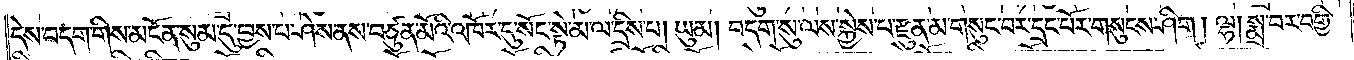དེས་བདག་གིས་མངོན་སུམ་དུ་བྱས་པ་ཤེས་ནས་བཙུན་མོའི་འཁོར་དུ་སོང་སྟེ་མ་ལ་དྲིས་པ། ཡུམ། བདག་སུ་ལས་སྐྱེས་པ་རྫུན་མ་གསུང་བར་དྲང་པོར་གསུངས་ཤིག །ལྷ། སྨྲ་བར་བགྱི་
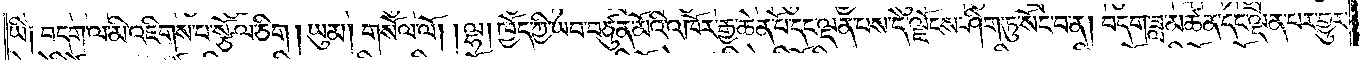ཡི༑ བདག་ལ་མི་འཇིགས་པ་སྩོལ་ཅིག །ཡུམ། གསོལ་ལོ། །ལྷ། ཁྱོད་ཀྱི་ཡབ་བཙུན་མོའི་འཁོར་རྒྱ་ཆེན་པོ་དང་ལྡན་པས་དེ་ལྗོངས་ཤིག་ཏུ་སོང་བ་ན། བདག་ཟླ་མཚན་དང་ལྡན་པར་གྱུར་
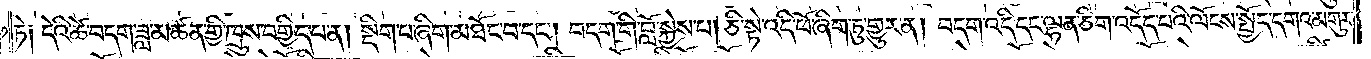ཏེ༑ དེའི་ཚེ་བདག་ཟླ་མཚན་གྱི་ཁྲུས་བགྱིད་པ་ན། སྡིག་པ་ཞིག་མཐོང་བ་དང༌། བདག་གི་བློ་སྐྱེས་པ། ཅི་སྟེ་འདི་ཕོ་ཞིག་ཏུ་གྱུར་ན། བདག་འདི་དང་ལྷན་ཅིག་འདོད་པའི་ལོངས་སྤྱོད་དགའ་མགུར་
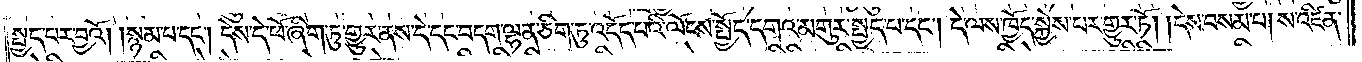སྤྱད་པར་བྱའོ། །སྙམ་པ་དང༌། དེས་དེ་ཕོ་ཞིག་ཏུ་གྱུར་ནས་དེ་དང་བདག་ལྷན་ཅིག་ཏུ་འདོད་པའི་ལོངས་སྤྱོད་དགའ་མགུར་སྤྱད་པ་དང༌། དེ་ལས་ཁྱོད་སྐྱེས་པར་གྱུར་ཏོ། །དེས་བསམ་པ། ས་འཛིན་
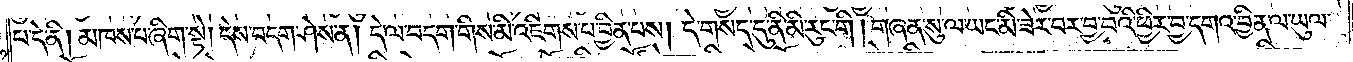པ་དེ་ནི། མཁས་པ་ཞིག་སྟེ། དེས་བདག་ཤེས་ན། དེ་ལ་བདག་གིས་མི་འཇིགས་པ་བྱིན་པས། དེ་གསད་དུ་ནི་མི་རུང་གི། གཞན་སུ་ལ་ཡང་མི་ཟེར་བར་བྱ་བའི་ཕྱིར་བྱ་དགའ་བྱིན་ལ་ཡུལ་
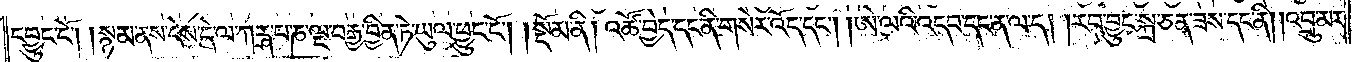དབྱུང་ངོ༌། །སྙམ་ནས་དེས་དེ་ལ་ཀརྴ་པ་ཎ་ལྔ་བརྒྱ་བྱིན་ཏེ་ཡུལ་ཕྱུང་ངོ༌།    །སྡོམ་ནི། འཚོ་བྱེད་དང་ནི་གསེར་འོད་དང༌། ཨེ་ལའི་འདབ་དང་ན་ལ་ད། །རབ་བྱུང་སྐྲ་ཅན་ཟས་དང་ནི། །འབྲུ་མར་
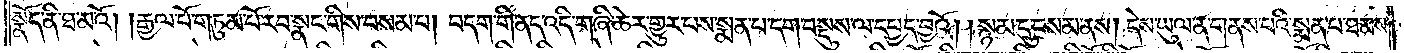སྣོད་ནི་ཐ་མའོ། །རྒྱལ་པོ་གཏུམ་པོ་རབ་སྣང་གིས་བསམ་པ། བདག་གི་ནད་འདི་གཞི་ཆེར་གྱུར་པས་སྨན་པ་དག་བསྡུས་ལ་དཔྱད་བྱའོ། །སྙམ་དུ་བསམ་ནས། དེས་ཡུལ་ན་གནས་པའི་སྨན་པ་ཐམས་
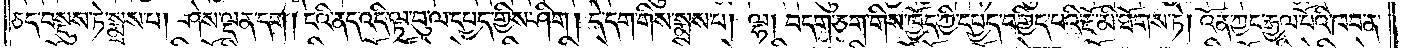ཅད་བསྡུས་ཏེ་སྨྲས་པ། ཤེས་ལྡན་དག །ངའི་ནད་འདི་ལྟ་བུ་ལ་དཔྱད་གྱིས་ཤིག །དེ་དག་གིས་སྨྲས་པ། ལྷ། བདག་ཅག་གིས་ཁྱོད་ཀྱི་དཔྱད་བགྱིད་པའི་རྔོ་མི་ཐོགས་ཏེ། འོན་ཀྱང་རྒྱལ་པོའི་ཁབ་ན་
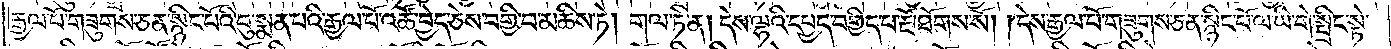རྒྱལ་པོ་གཟུགས་ཅན་སྙིང་པོའི་བུ་སྨན་པའི་རྒྱལ་པོ་འཚོ་བྱེད་ཅེས་བགྱི་བ་མཆིས་ཏེ། གལ་ཏེ་ན། དེས་ལྷའི་དཔྱད་བགྱིད་པ་རྔོ་ཐོགས་སོ། །དེས་རྒྱལ་པོ་གཟུགས་ཅན་སྙིང་པོ་ལ་ཡི་གེ་སྤྲིང་སྟེ་
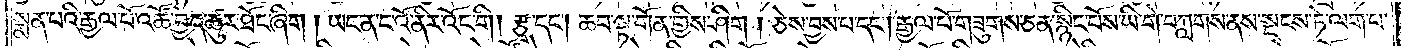སྨན་པའི་རྒྱལ་པོ་འཚོ་བྱེད་ཚུར་ཐོང་ཞིག །ཡང་ན་ང་འོ་ནིར་འོང་གི །རྩྭ་དང༌། ཆབ་སྟ་གོན་གྱིས་ཤིག །ཅེས་བྱས་པ་དང༌། རྒྱལ་པོ་གཟུགས་ཅན་སྙིང་པོས་ཡི་གེ་བཀླགས་ནས་སྡངས་ཏེ་ལག་པ་
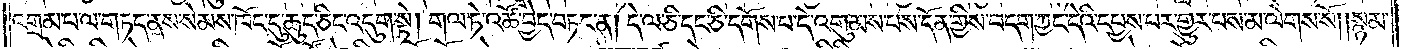འགྲམ་པ་ལ་གཏད་ནས་སེམས་ཁོང་དུ་ཆུད་ཅིང་འདུག་སྟེ། གལ་ཏེ་འཚོ་བྱེད་བཏང་ན། དེ་ལ་ཅི་དང་ཅི་དགོས་པ་དེ་འགུམས་པས་དོན་གྱིས་བདག་ཀྱང་དེའི་དཔྱས་པར་གྱུར་པས་མ་ལེགས་སོ། །སྙམ་
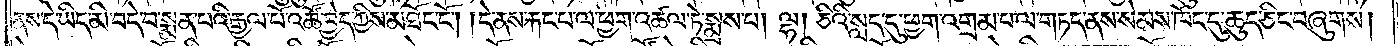ནས་དེ་ཡིད་མི་བདེ་བ་སྨན་པའི་རྒྱལ་པོ་འཚོ་བྱེད་ཀྱིས་མཐོང་ངོ༌། །དེ་ནས་རྐང་པ་ལ་ཕྱག་འཚལ་ཏེ་སྨྲས་པ། ལྷ། ཅིའི་སླད་དུ་ཕྱག་འགྲམ་པ་ལ་གཏད་ནས་སེམས་ཁོང་དུ་ཆུད་ཅིང་བཞུགས།
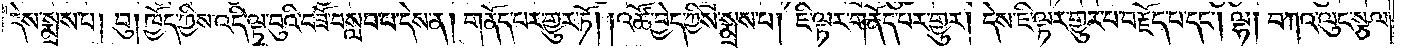དེས་སྨྲས་པ། བུ། ཁྱོད་ཀྱིས་འདི་ལྟ་བུའི་བཟོ་བསླབ་པ་དེས་ན། གནོད་པར་གྱུར་ཏོ། །འཚོ་བྱེད་ཀྱིས་སྨྲས་པ། ཇི་ལྟར་གནོད་པར་གྱུར། དེས་ཇི་ལྟར་གྱུར་པ་བརྗོད་པ་དང༌། ལྷ། བཀའ་ལུང་སྩལ་
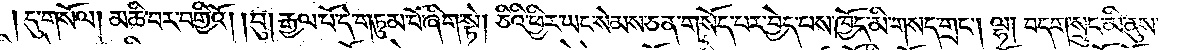དུ་གསོལ། མཆི་བར་བགྱིའོ། །བུ། རྒྱལ་པོ་དེ་གཏུམ་པོ་ཞིག་སྟེ། ཅིའི་ཕྱིར་ཡང་སེམས་ཅན་གསོད་པར་བྱེད་པས་ཁྱོད་མི་གསད་གྲང༌། ལྷ། བདག་སྲུང་མི་ནུས་
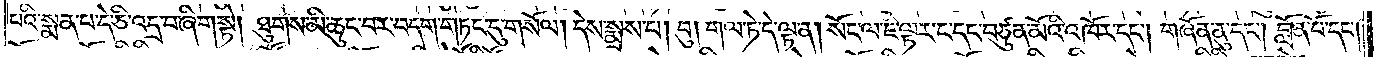པའི་སྨན་པ་དེ་ཅི་འདྲ་བ་ཞིག་སྟེ། ཐུགས་མི་ཆུང་བར་བདག་གཏང་དུ་གསོལ། དེས་སྨྲས་པ། བུ། གལ་ཏེ་དེ་ལྟ་ན། སོང་ལ་ཇི་ལྟར་ང་དང་བཙུན་མོའི་འཁོར་དང༌། གཞོན་ནུ་དང༌། བློན་པོ་དང༌།
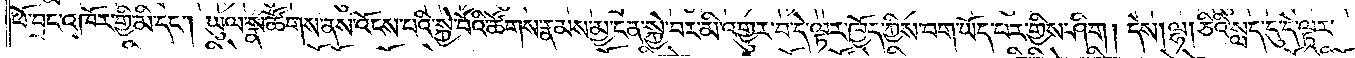ཕོ་བྲང་འཁོར་གྱི་མི་དང༌། ཡུལ་སྣ་ཚོགས་ནས་འོངས་པའི་སྐྱེ་བོའི་ཚོགས་རྣམས་མྱ་ངན་སྐྱེ་བར་མི་འགྱུར་བ་དེ་ལྟར་ཁྱོད་ཀྱིས་བག་ཡོད་པར་གྱིས་ཤིག །དེས། ལྷ། ཅིའི་སླད་དུ་དེ་ལྟར་
